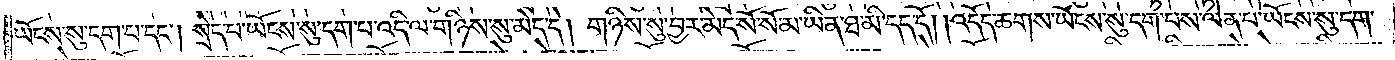ཡོངས་སུ་དག་པ་དང༌། སྲེད་པ་ཡོངས་སུ་དག་པ་འདི་ལ་གཉིས་སུ་མེད་དེ། གཉིས་སུ་བྱར་མེད་སོ་སོ་མ་ཡིན་ཐ་མི་དད་དོ། །འདོད་ཆགས་ཡོངས་སུ་དག་པས་ལེན་པ་ཡོངས་སུ་དག་
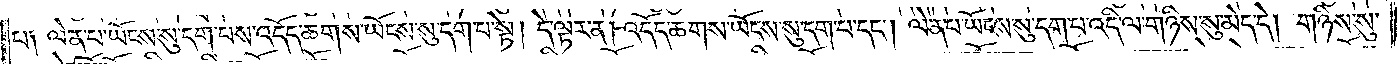པ༑ ལེན་པ་ཡོངས་སུ་དག་པས་འདོད་ཆགས་ཡོངས་སུ་དག་པ་སྟེ། དེ་ལྟར་ན། འདོད་ཆགས་ཡོངས་སུ་དག་པ་དང༌། ལེན་པ་ཡོངས་སུ་དག་པ་འདི་ལ་གཉིས་སུ་མེད་དེ། གཉིས་སུ་
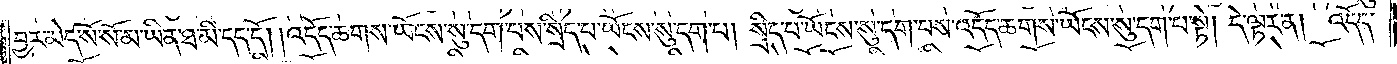བྱར་མེད་སོ་སོ་མ་ཡིན་ཐ་མི་དད་དོ། །འདོད་ཆགས་ཡོངས་སུ་དག་པས་སྲིད་པ་ཡོངས་སུ་དག་པ། སྲིད་པ་ཡོངས་སུ་དག་པས་འདོད་ཆགས་ཡོངས་སུ་དག་པ་སྟེ། དེ་ལྟར་ན། འདོད་
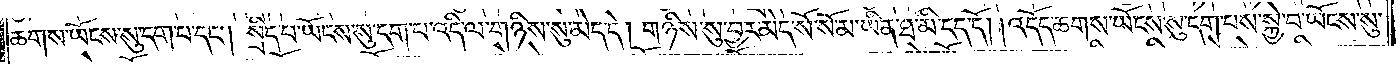ཆགས་ཡོངས་སུ་དག་པ་དང༌། སྲིད་པ་ཡོངས་སུ་དག་པ་འདི་ལ་གཉིས་སུ་མེད་དེ། གཉིས་སུ་བྱར་མེད་སོ་སོ་མ་ཡིན་ཐ་མི་དད་དོ། །འདོད་ཆགས་ཡོངས་སུ་དག་པས་སྐྱེ་བ་ཡོངས་སུ་
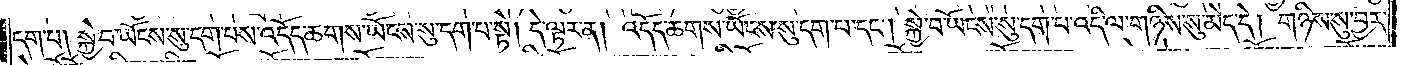དག་པ། སྐྱེ་བ་ཡོངས་སུ་དག་པས་འདོད་ཆགས་ཡོངས་སུ་དག་པ་སྟེ། དེ་ལྟར་ན། འདོད་ཆགས་ཡོངས་སུ་དག་པ་དང༌། སྐྱེ་བ་ཡོངས་སུ་དག་པ་འདི་ལ་གཉིས་སུ་མེད་དེ། གཉིས་སུ་བྱར་
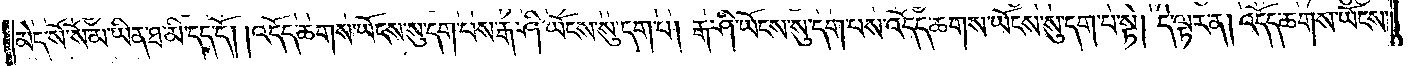མེད་སོ་སོ་མ་ཡིན་ཐ་མི་དད་དོ། །འདོད་ཆགས་ཡོངས་སུ་དག་པས་རྒ་ཤི་ཡོངས་སུ་དག་པ། རྒ་ཤི་ཡོངས་སུ་དག་པས་འདོད་ཆགས་ཡོངས་སུ་དག་པ་སྟེ། དེ་ལྟར་ན། འདོད་ཆགས་ཡོངས་
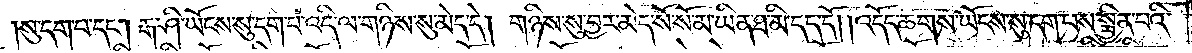སུ་དག་པ་དང༌། རྒ་ཤི་ཡོངས་སུ་དག་པ་འདི་ལ་གཉིས་སུ་མེད་དེ། གཉིས་སུ་བྱར་མེད་སོ་སོ་མ་ཡིན་ཐ་མི་དད་དོ། །འདོད་ཆགས་ཡོངས་སུ་དག་པས་སྦྱིན་པའི་
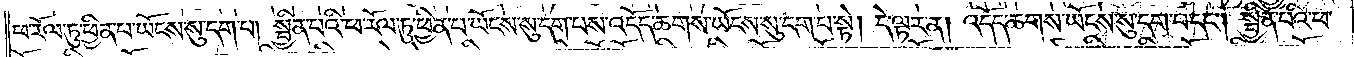ཕ་རོལ་ཏུ་ཕྱིན་པ་ཡོངས་སུ་དག་པ། སྦྱིན་པའི་ཕ་རོལ་ཏུ་ཕྱིན་པ་ཡོངས་སུ་དག་པས་འདོད་ཆགས་ཡོངས་སུ་དག་པ་སྟེ། དེ་ལྟར་ན། འདོད་ཆགས་ཡོངས་སུ་དག་པ་དང༌། སྦྱིན་པའི་ཕ་
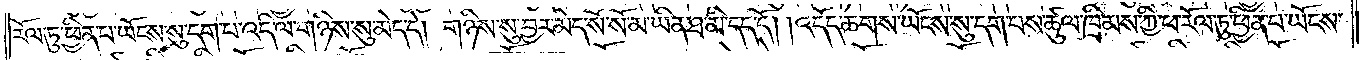རོལ་ཏུ་ཕྱིན་པ་ཡོངས་སུ་དག་པ་འདི་ལ་གཉིས་སུ་མེད་དེ། གཉིས་སུ་བྱར་མེད་སོ་སོ་མ་ཡིན་ཐ་མི་དད་དོ། །འདོད་ཆགས་ཡོངས་སུ་དག་པས་ཚུལ་ཁྲིམས་ཀྱི་ཕ་རོལ་ཏུ་ཕྱིན་པ་ཡོངས་
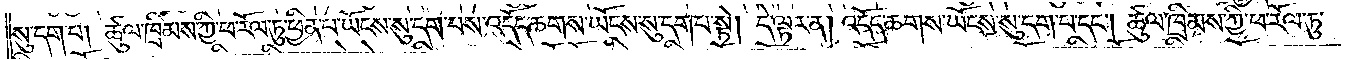སུ་དག་པ། ཚུལ་ཁྲིམས་ཀྱི་ཕ་རོལ་ཏུ་ཕྱིན་པ་ཡོངས་སུ་དག་པས་འདོད་ཆགས་ཡོངས་སུ་དག་པ་སྟེ། དེ་ལྟར་ན། འདོད་ཆགས་ཡོངས་སུ་དག་པ་དང༌། ཚུལ་ཁྲིམས་ཀྱི་ཕ་རོལ་ཏུ་
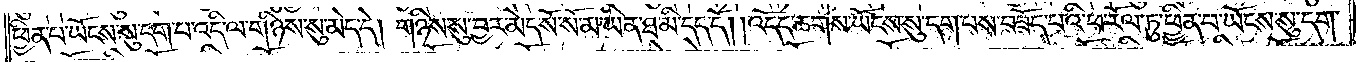ཕྱིན་པ་ཡོངས་སུ་དག་པ་འདི་ལ་གཉིས་སུ་མེད་དེ། གཉིས་སུ་བྱར་མེད་སོ་སོ་མ་ཡིན་ཐ་མི་དད་དོ། །འདོད་ཆགས་ཡོངས་སུ་དག་པས་བཟོད་པའི་ཕ་རོལ་ཏུ་ཕྱིན་པ་ཡོངས་སུ་དག་
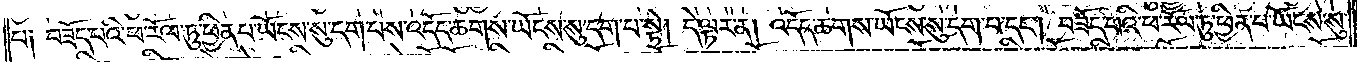པ༑ བཟོད་པའི་ཕ་རོལ་ཏུ་ཕྱིན་པ་ཡོངས་སུ་དག་པས་འདོད་ཆགས་ཡོངས་སུ་དག་པ་སྟེ། དེ་ལྟར་ན། འདོད་ཆགས་ཡོངས་སུ་དག་པ་དང༌། བཟོད་པའི་ཕ་རོལ་ཏུ་ཕྱིན་པ་ཡོངས་སུ་
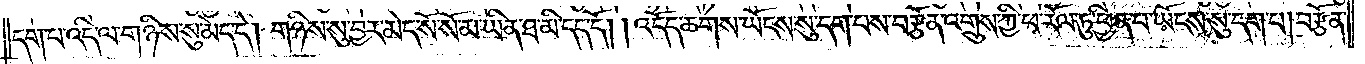དག་པ་འདི་ལ་གཉིས་སུ་མེད་དེ། གཉིས་སུ་བྱར་མེད་སོ་སོ་མ་ཡིན་ཐ་མི་དད་དོ། །འདོད་ཆགས་ཡོངས་སུ་དག་པས་བརྩོན་འགྲུས་ཀྱི་ཕ་རོལ་ཏུ་ཕྱིན་པ་ཡོངས་སུ་དག་པ། བརྩོན་
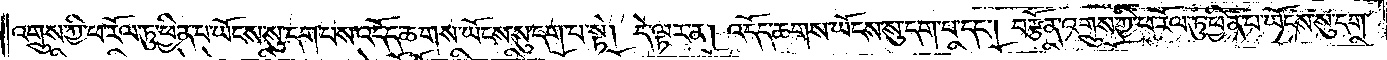འགྲུས་ཀྱི་ཕ་རོལ་ཏུ་ཕྱིན་པ་ཡོངས་སུ་དག་པས་འདོད་ཆགས་ཡོངས་སུ་དག་པ་སྟེ། དེ་ལྟར་ན། འདོད་ཆགས་ཡོངས་སུ་དག་པ་དང༌། བརྩོན་འགྲུས་ཀྱི་ཕ་རོལ་ཏུ་ཕྱིན་པ་ཡོངས་སུ་དག་
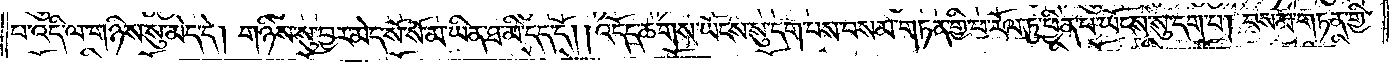པ་འདི་ལ་གཉིས་སུ་མེད་དེ། གཉིས་སུ་བྱར་མེད་སོ་སོ་མ་ཡིན་ཐ་མི་དད་དོ། །འདོད་ཆགས་ཡོངས་སུ་དག་པས་བསམ་གཏན་གྱི་ཕ་རོལ་ཏུ་ཕྱིན་པ་ཡོངས་སུ་དག་པ། བསམ་གཏན་གྱི་
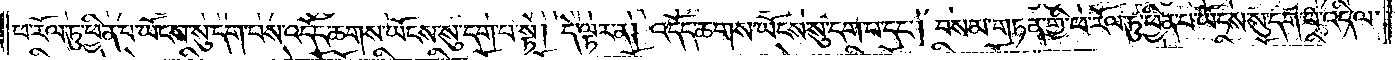ཕ་རོལ་ཏུ་ཕྱིན་པ་ཡོངས་སུ་དག་པས་འདོད་ཆགས་ཡོངས་སུ་དག་པ་སྟེ། དེ་ལྟར་ན། འདོད་ཆགས་ཡོངས་སུ་དག་པ་དང༌། བསམ་གཏན་གྱི་ཕ་རོལ་ཏུ་ཕྱིན་པ་ཡོངས་སུ་དག་པ་འདི་ལ་
